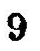9
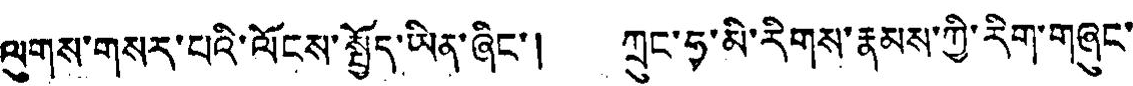ལུགས་གསར་པའི་ལོངས་སྤྱོད་ཡིན་ཞིང་། ཀྲུང་ཧྭ་མི་རིགས་རྣམས་ཀྱི་རིག་གཞུང་
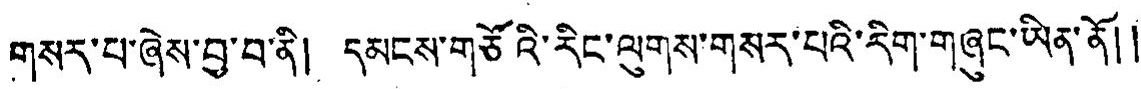གསར་པ་ཞེས་བྱ་བ་ནི། དམངས་གཙོའི་རིང་ལུགས་གསར་པའི་རིག་གཞུང་ཡིན་ནོ།།
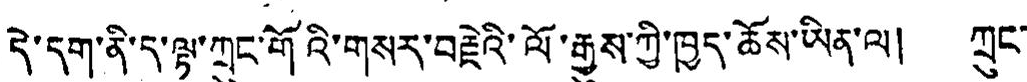དེ་དག་ནི་དུ་ལྟ་ཀྲུང་གོའི་གསར་བརྗེའི་ལོ་རྒྱུས་ཀྱི་ཁྱད་ཆོས་ཡིན་ལ། ཀྲུང་
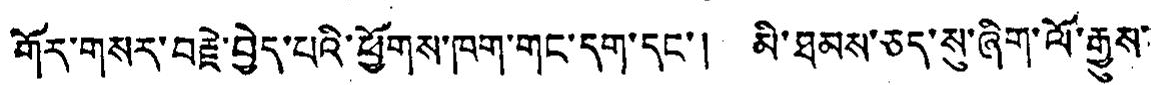གོར་གསར་བརྗེ་བྱེད་པའི་ཕྱོགས་ཁག་གང་དག་དང་། མི་ཐམས་ཅད་སུ་ཞིག་ལོ་རྒྱུས་
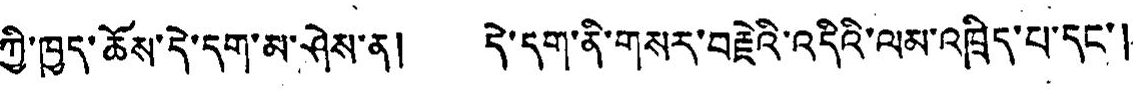ཀྱི་ཁྱད་ཆོས་དེ་དག་མ་ཤེས་ན། དེ་དག་ནི་གསར་བརྗེའི་འདིའི་ལམ་འཁྲིད་པ་དང་།
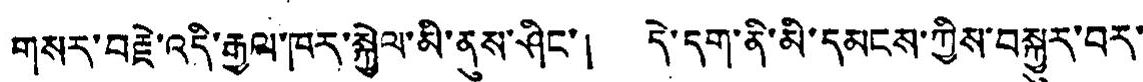གསར་བརྗེ་འདི་རྒྱལ་ཁར་སྐྱེལ་མི་ནས་ཤིང་། དེ་དག་ནི་མི་དམངས་ཀྱིས་བསྐྱུར་བར་
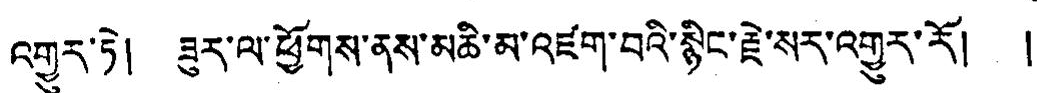འགྱུར་ཏེ། ཟུར་ལ་ཕྱོགས་ནས་མཆི་མ་འཛག་བའི་སྙིང་རྗེ་སར་འགྱུར་རོ། །
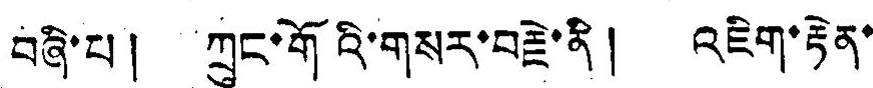བཞི་པ། ཀྲུང་གོའི་གསར་བརྗེ་ནི། འཇིག་རྟེན་
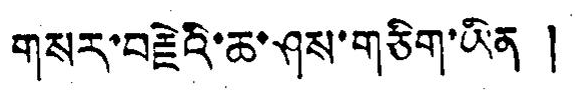གསར་བརྗེའི་ཆ་ཤས་གཅིག་ཡིན །
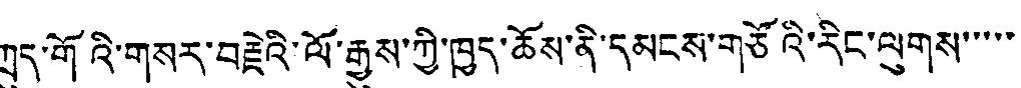ཀྲུད་གོའི་གསར་བརྗེའི་ལོ་རྒྱུས་ཀྱི་ཁྱད་ཆོས་ནི་དམངས་གཙོའི་རིང་ལུགས་་་་་
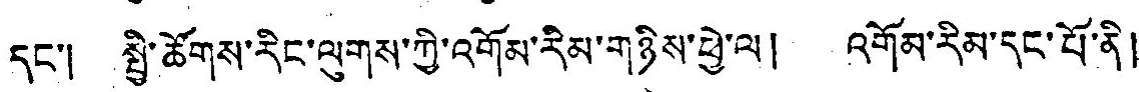དང་། སྤྱི་ཚོགས་རིང་ལུགས་ཀྱི་འགོམ་རིམ་གཉིས་ཕྱེ་ལ། འགོམ་རིམ་དང་པོ་ནི།
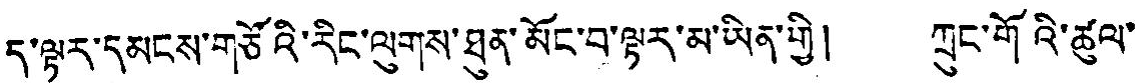ད་ལྟར་དམངས་གཙོའི་རིང་ལུགས་ཐུན་མོང་བ་ལྟར་མ་ཡིན་གྱི། ཀྲུང་གོའི་ཚུལ་
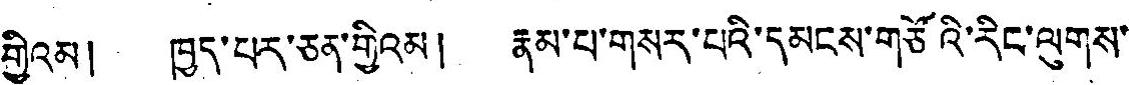གྱིའམ། ཁྱད་པར་ཅན་གྱིའམ། རྣམ་པ་གསར་པའི་དམངས་གཙོའི་རིང་ལུགས་
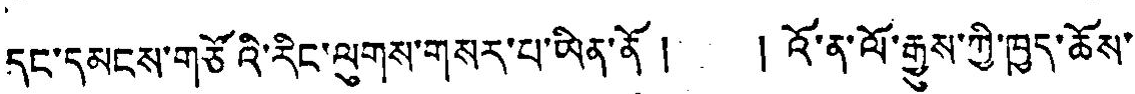དང་དམངས་གཙོའི་རིང་ལུགས་གསར་པ་ཡིན་ནོ། །འོ་ན་ལོ་རྒྱུས་ཀྱི་ཁྱད་ཆོས་
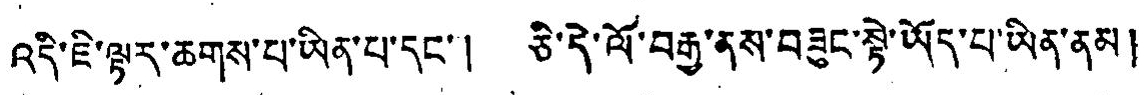འདི་ཇི་ལྟར་ཆགས་པ་ཡིན་པ་དང་། ཅི་དེ་ལོ་བརྒྱ་ནས་བཟུང་སྟེ་ཡོད་པ་ཡིན་ནམ།
